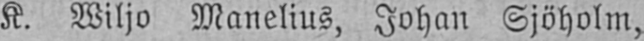K. Wiljo Manelius, Johan Sjöholm,
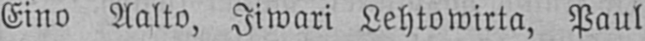Eino Aalto, Iiwari Lehtowirta, Paul
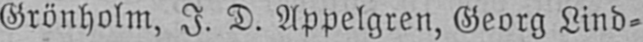Grönholm, I. D. Appelgren, Georg Lind-
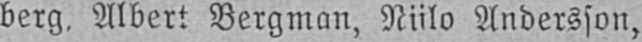berg, Albert Bergman, Niilo Andersson,
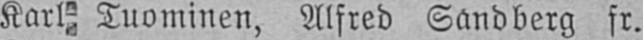Karl Tuominen, Alfred Sandberg fr.
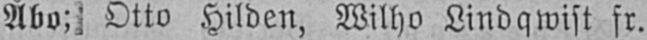Åbo; Otto Hilden, Wilho Lindqwist fr.
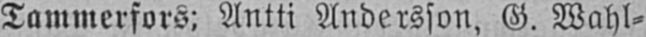Tammerfors; Antti Andersson, G. Wahl-
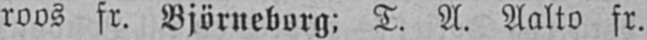roos fr. Björneborg: T. A. Aalto fr.
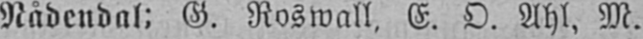Nådendal; G. Roswall, E. O. Ahl, M.
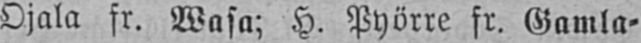Ojala fr. Wasa; H. Pyörre fr. Gamla-
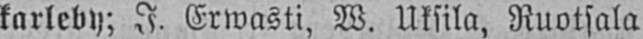karleby; I. Erwasti, W. Uksila, Ruotsala
